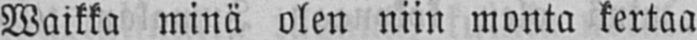Waikka minä olen niin monta kertaa
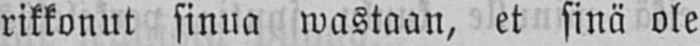rikkonut sinua wastaan, et sinä ole
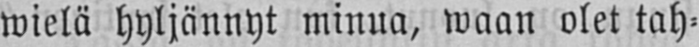wielä hyljännyt minua, waan olet tah-
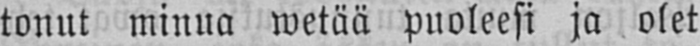tonut minua wetää puoleesi ja olet
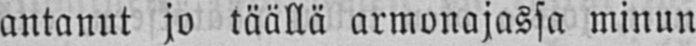antanut jo täällä armonajassa minun
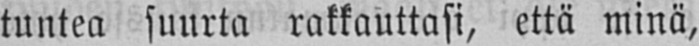tuntea suurta rakkauttasi, että minä,
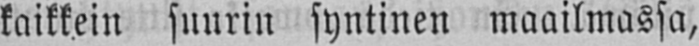kaikkein suurin syntinen maailmassa,
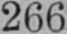266
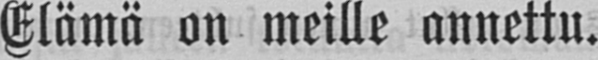Elämä on meille annettu.
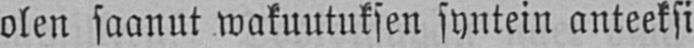olen saanut wakuutuksen syntein anteeksi
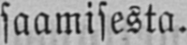saamisesta.
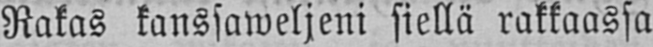Rakas kanssaweljeni siellä rakkaassa
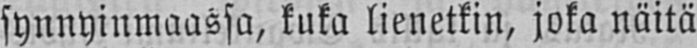synnyinmaassa, kuka lienetkin, joka näitä
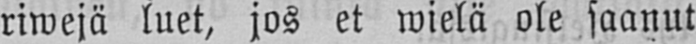riwejä luet, jos et wielä ole saanut
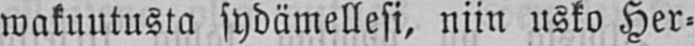wakuutusta sydämellesi, niin usko Her-
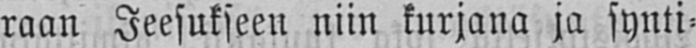raan Jeesukseen niin kurjana ja synti-
